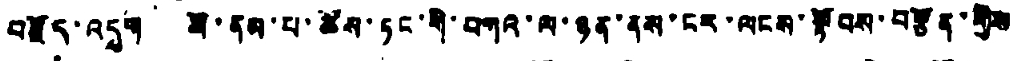བརྗོད་འདུག སོ་ནམ་པ་ཚོས་ཏང་གི་བཀའ་ལ་ཉན་ནས་ངར་ལངས་སྟོབས་བརྩོན་གྱིས
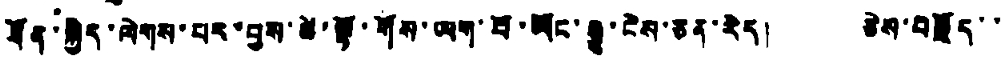ཐོན་སྐྱེད་ལེགས་པར་བྱས་ཚེ་ལྟོ་གོས་ཡག་པོ་ཡོང་རྒྱུ་ངེས་ཅན་རེད། ཅེས་བརྗོད་་
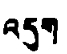འདུག
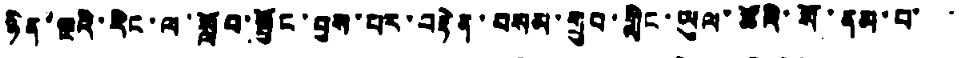ཉིན་ལྔའི་རིང་ལ་སློབ་སྦྱོང་བྱས་པར་བརྟེན་བསམ་གྲུབ་གླིང་ཡུལ་ཚོའི་སོ་ནམ་པ་
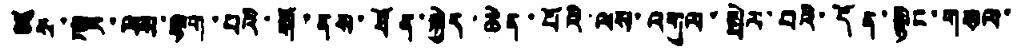ཚོས་སྔར་ལས་ལྷག་པའི་སྒོ་ནས་ཐོན་སྐྱེད་ཆེན་པོའི་ལས་འགུལ་སྤེར་བའི་དོན་སྙིང་གསལ་
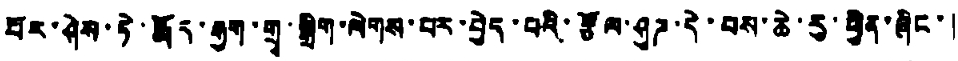པོར་ཤེས་ཏེ་རྨོད་རྒྱག་གྲྭ་སྒྲིག་ལེགས་པར་བྱེད་པའི་རྩོལ་ཤུཌ་དེ་བས་ཆེ་རུ་ཕྱིན་ཞིང་།
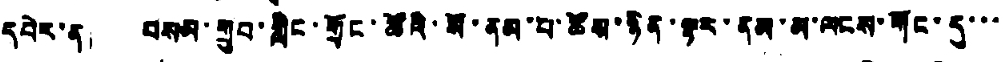དཔེར་ན། བསམ་གྲུབ་གླིང་གྲོང་ཚོའི་སོ་ནམ་པ་ཚོས་ཉིན་ལྟར་ནམ་མ་ལངས་གོང་དུ་་་
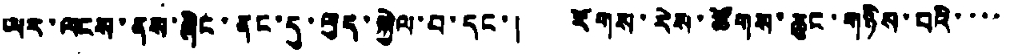ཡར་ལངས་ནས་ཞིང་ནང་དུ་ལུད་སྐྱེལ་བ་དང་། རོགས་རེས་ཚོགས་ཆུང་གཉིས་པའི་་་་
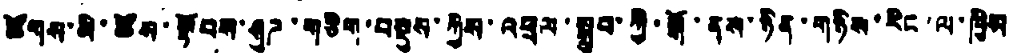ཚོགས་མི་ཚོས་སྟོབས་ཤུཌ་གཅིག་བསྡུས་ཀྱིས་འཕྲལ་སྒྲུབ་ཀྱི་སྒོ་ནས་ཉིན་གཉིས་རིང་ལ་ཁྱིམ
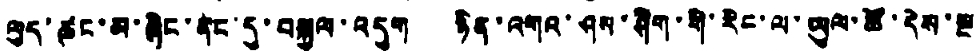ལུད་ཚང་མ་ཞིང་ནང་དུ་བསྐྱལ་འདུག ཉིན་འགའ་ཤས་ཞིག་གི་རིང་ལ་ཡུལ་ཚོ་དེས་སྔ
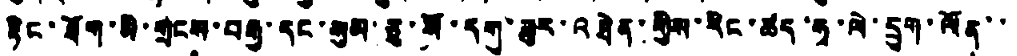རྟིང་ཐོག་མི་གྲངས་བརྒྱ་དང་སུམ་ཅུ་སོ་དགུ་ཟུར་འཐེན་གྱིས་རིང་ཚད་ཧྭ་ལེ་དྲུག་ལོན་་
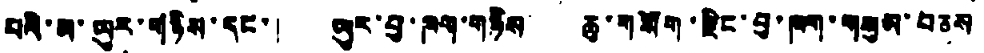པའི་མ་ཡུར་གཉིས་དང་། ཡུར་བུ་ཁག་གཉིས ཆུ་གསོག་རྫིང་བུ་ཁག་གསམ་བཅས
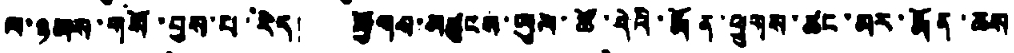ལ་ཉམས་གསོ་བྱས་པ་རེད། ཕྱོགས་མཚུངས་ཡུལ་ཚོ་དེའི་རྨོན་ཕྱུགས་ཚང་མར་རྨོན་ཆས
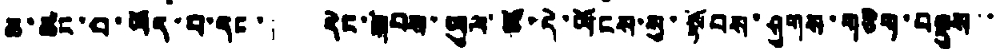ཆ་ཚང་བ་ཡོད་པ་དང་། དེང་སྐབས་ཡུལ་ཚོ་དེ་ཡོངས་སུ་སྟོབས་ཤུགས་གཅིག་བསྡུས་་
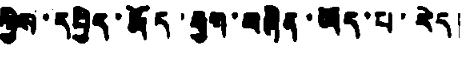ཀྱིས་དཔྱིད་རྨོད་རྒྱག་བཞིན་ཡོད་པ་རེད།
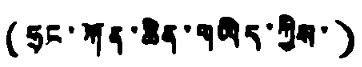(ཧྲང་ཀོན་ཆིན་གཡིད་ཀྱིས་)
